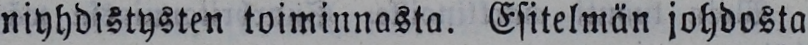niyhdistysten toiminnasta. Esitelmän johdosta
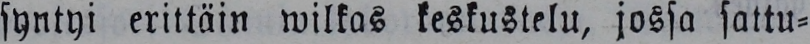syntyi erittäin wilkas keskustelu, jossa sattu-
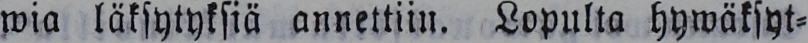wia läksytyksiä annettiin. Lopulta hywäksyt-
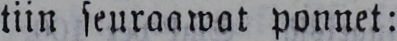tiin seuraawat ponnet:
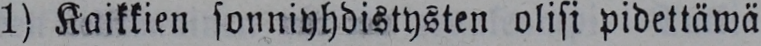1) Kaikkien sonniyhdistysten olisi pidettäwä
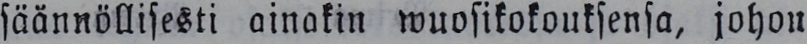säännöllisesti ainakin wuosikokouksensa, johon
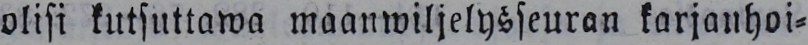olisi kutsuttawa maanwiljelysseuran karjanhoi-
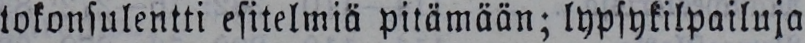tokonsulentti esitelmiä pitämään; lypsykilpailuja
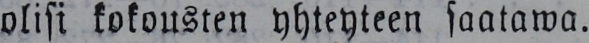olisi kokousten yhteyteen saatawa.
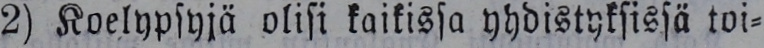2) Koelypsyjä olisi kaikissa yhdistyksissä toi-
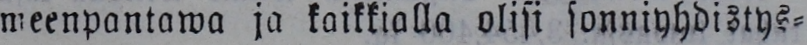meenpantawa ja kaikkialla olisi sonniyhdistys-
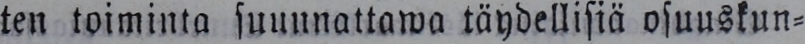ten toiminta suunnaltawa täydellisiä osuuskun-
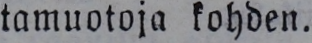tamuotoja kohden.
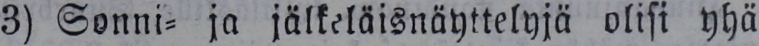3) Sonni- ja jälkeläisnäyttelyjä olisi yhä
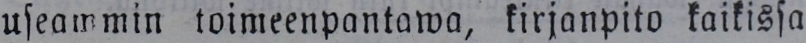useammin toimeenpantawa, kirjanpito kaikissa
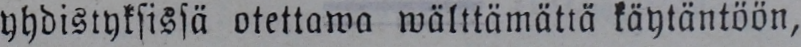yhdistyksissä olettawa wälttämättä käytäntöön,
